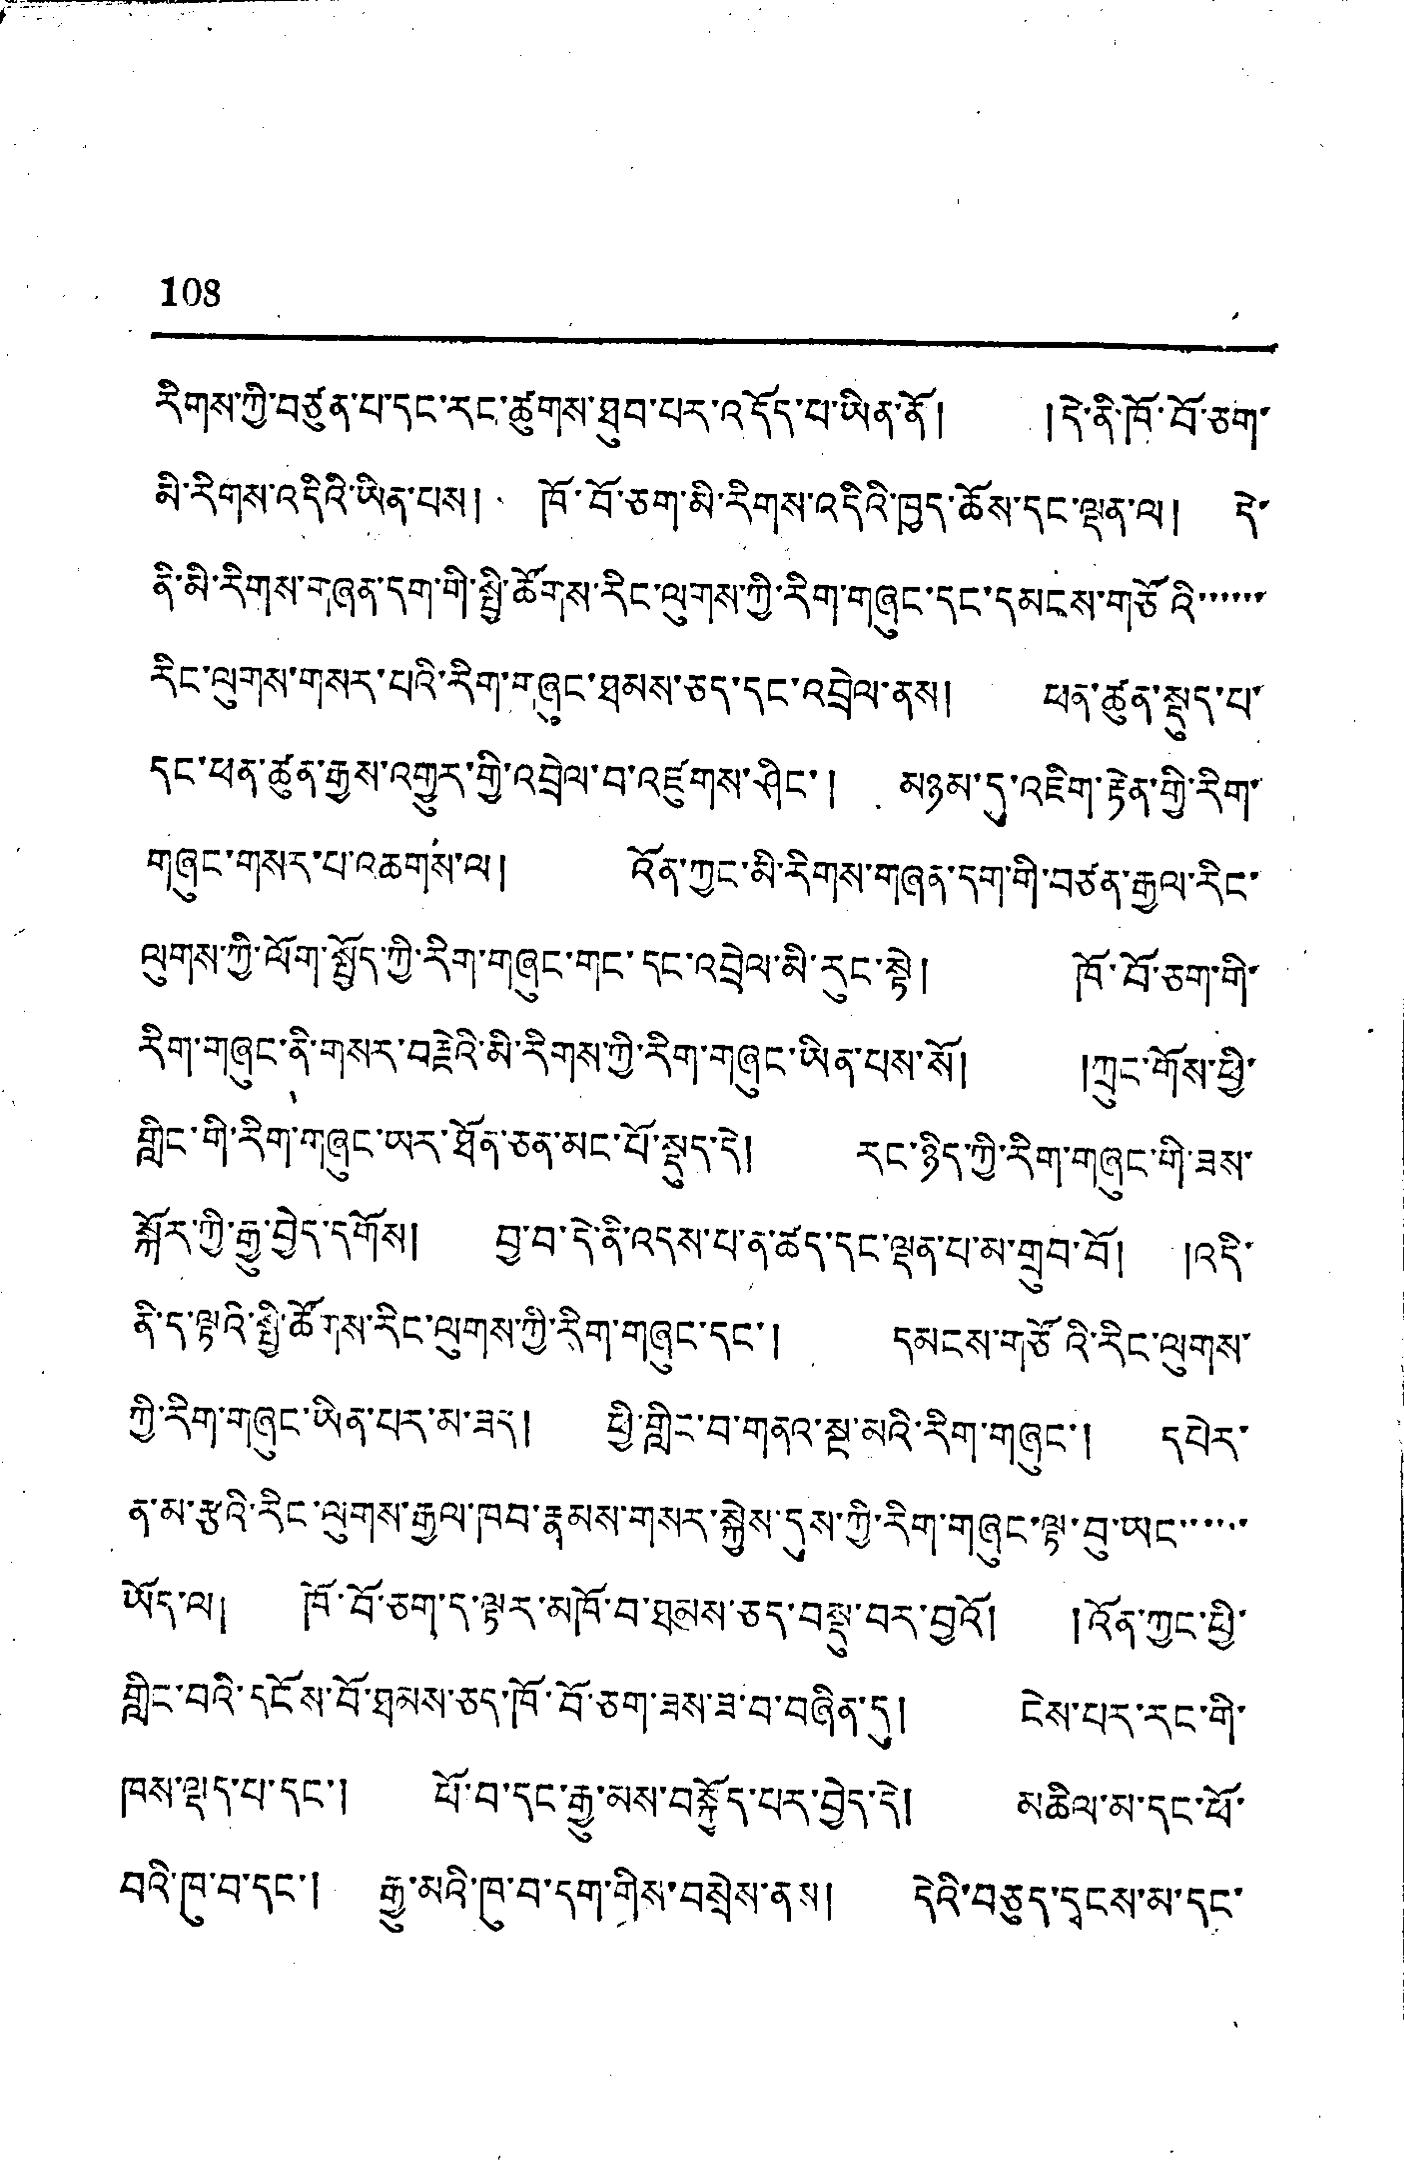108
རིགས་ཀྱི་བཙུན་པ་དང་རང་ཚུགས་ཐུབ་པར་འདོད་པ་ཡིན་ནོ། །དེ་ནི་ཁོ་བོ་ཅག་
མི་རིགས་འདིའི་ཡིན་པས། ཁོ་བོ་ཅག་མི་རིགས་འདིའི་ཁྱད་ཆོས་དང་ལྡན་ལ། དེ་
ནི་མི་རིགས་གཞན་དག་གི་སྤྱི་ཚོགས་རིང་ལུགས་ཀྱི་རིག་གཞུང་དང་དམངས་གཙོའི་་་་་་་
རིང་ལུགས་གསར་པའི་རིག་གཞུང་ཐམས་ཅད་དང་འབྲེལ་ནས། ཕན་ཚུན་སྡུད་པ་
དང་ཕན་ཚུན་རྒྱས་འགྱུར་གྱི་འབྲེལ་བ་འཛུགས་ཤིང་། མཉམ་དུ་འཇིག་རྟེན་གྱི་རིག་
གཞུང་གསར་པ་འཆགས་ལ། འོན་ཀྱང་མི་རིགས་གཞན་དག་གི་བཙན་རྒྱལ་རིང་
ལུགས་ཀྱི་ལོག་སྤྱོད་ཀྱི་རིག་གཞུང་གང་དང་འབྲེལ་མི་རུང་སྟེ། ཁོ་བོ་ཅག་གི་
རིག་གཞུང་ནི་གསར་བརྗེའི་མི་རིགས་ཀྱི་རིག་གཞུང་ཡིན་པས་སོ། །ཀྲུང་གོས་ཕྱི་
གླིང་གི་རིག་གཞུང་ཡར་ཐོན་ཅན་མང་པོ་སྡུད་དེ། རང་ཉིད་ཀྱི་རིག་གཞུང་གི་ཟས་
སྐོར་ཀྱི་རྒྱུ་བྱེད་དགོས། བྱ་བ་དེ་ནི་འདས་པ་ན་ཚད་དང་ལྡན་པ་མ་གྲུབ་བོ། །འདི་
ནི་ད་ལྟའི་སྤྱི་ཚོགས་རིང་ལུགས་ཀྱི་རིག་གཞུང་དང་། དམངས་གཙོའི་རིང་ལུགས་
ཀྱི་རིག་གཞུང་ཡིན་པར་མ་ཟད། ཕྱི་གླིང་བ་གནའ་སྔ་མའི་རིག་གཞུང་། དཔེར་
ན་མ་རྩའི་རིང་ལུགས་རྒྱལ་ཁབ་རྣམས་གསར་སྐྱེས་དུས་ཀྱི་རིག་གཞུང་ལྟ་བུ་ཡང་་་་་་
ཡོད་ལ། ཁོ་བོ་ཅག་ད་ལྟར་མཁོ་བ་ཐམས་ཅད་བསྡུ་བར་བྱའོ། །འོན་ཀྱང་ཕྱི་
གླིང་བའི་དངོས་བོ་ཐམས་ཅད་ཁོ་བོ་ཅག་ཟས་ཟ་བ་བཞིན་དུ། ངེས་པར་རང་གི་
ཁས་ལྡད་པ་དང་། ཕོ་བ་དང་རྒྱུ་མས་བསྐྱོད་པར་བྱེད་དེ། མཆིལ་མ་དང་ཕོ་
བའི་ཁུ་བ་དང་། རྒྱུ་མའི་ཁུ་བ་དག་གིས་བསྲེས་ནས། དེའི་བཅུད་དྭངས་མ་དང་
